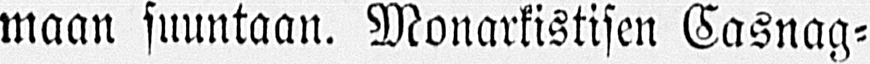maan suuntaan. Monarkistisen Casnag-
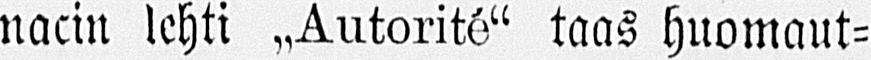nacin lehti „Autorité" taas huomaut-
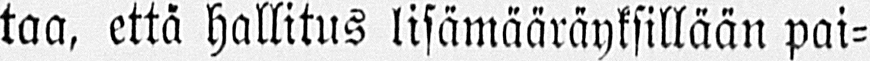taa, että hallitus lisämääräyksillään pai-
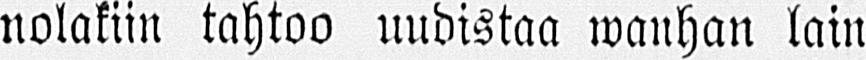nolakiin tahtoo uudistaa wanhan lain
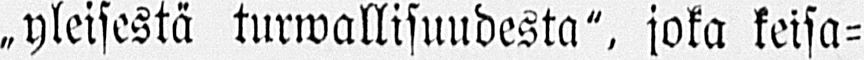„yleisestä turwallisundesta", joka keisa-
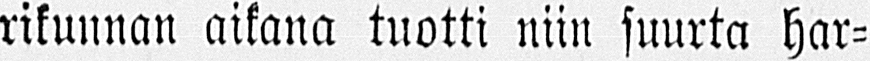rikunnan aikana tuotti niin suurta har-
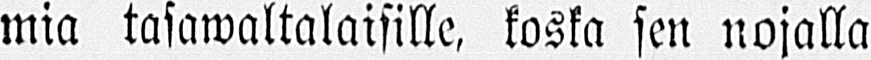mia tasawaltalaisille, koska sen nojalla
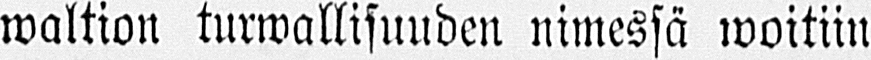waltion turwallisuuden nimessä woitiin
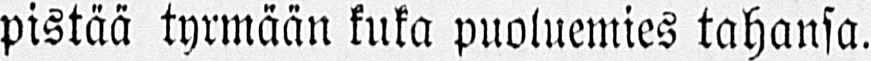pistää tyrmään kuka puoluemies tahansa.
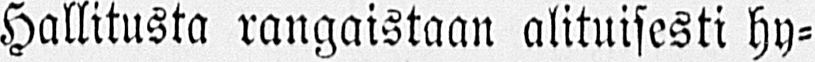Hallitusta rangaistaan alituisesti hy-
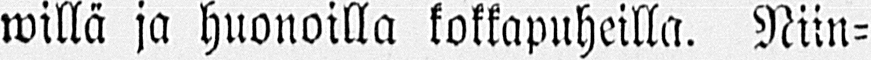willä ja huonoilla kokkapuheilla. Niin-
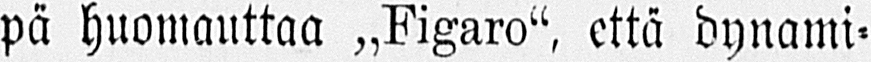pä huomauttaa „Figaro", että dynami-
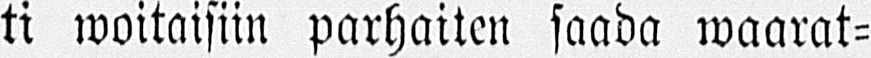ti woitaisiin parhaiten saada waarat-
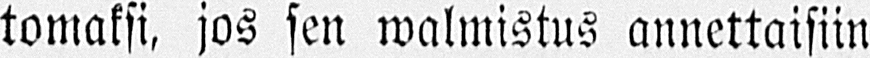tomaksi, jos sen walmistus annettaisiin
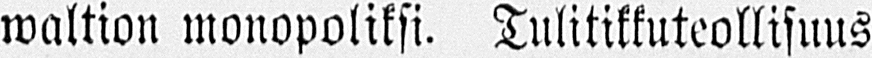waltion monopoliksi. Tulitikkuteollisuus
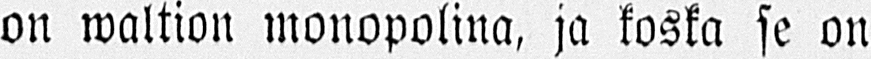on waltion monopolina, ja koska se on
